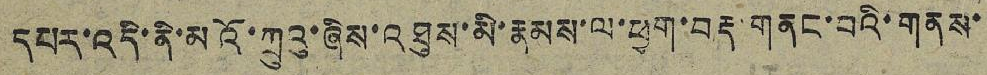དཔར་འདི་ནི་མའོ་ཀྲུའུ་ཞིས་འཐུས་མི་རྣམས་ལ་ཕྱག་བརྡ་གནང་བའི་གནས་
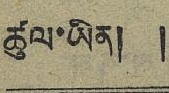ཚུལ་ཡིན། །
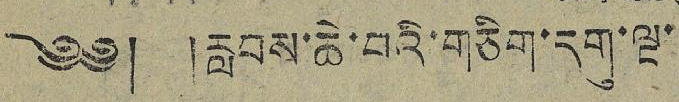༄༅། །རླབས་ཆེ་བའི་གཅིག་དགུ་ལྔ་
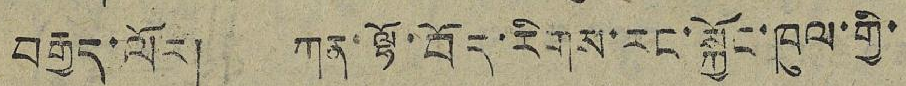བརྒྱད་ལོར། ཀན་ལྷོ་བོད་རིགས་རང་སྐྱོང་ཁུལ་གྱི་
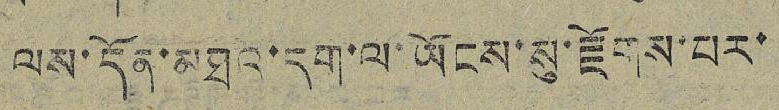ལས་དོན་མཐའ་དག་ལ་ཡོངས་སུ་རྫོགས་པར་
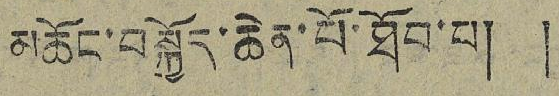མཆོང་བསྐྱོད་ཆེན་པོ་ཐོབ་པ། །
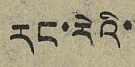རང་རེའི་
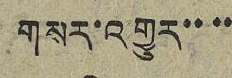གསར་འགྱུར་་་་
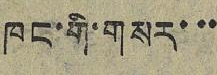ཁང་གི་གསར་་་
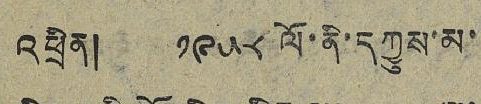འཕྲིན། ༡༩༥༨ ལོ་ནི་དཀྱུས་མ་
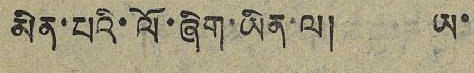མིན་པའི་ལོ་ཞིག་ཡིན་ལ། ཡ་
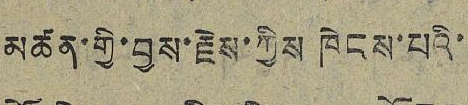མཚན་གྱི་བྱས་རྗེས་ཀྱིས ཁེངས་པའི་
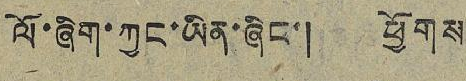ལོ་ཞིག་ཀྱང་ཡིན་ཞིང་། ཕྱོགས
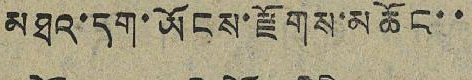མཐའ་དག་ཡོངས་རྫོགས་མཆོང་་
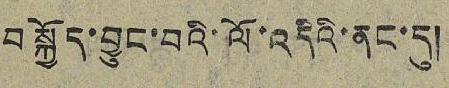བསྐྱོད་བྱུང་བའི་ལོ་འདིའི་ནང་དུ།
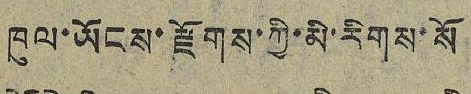ཁུལ་ཡོངས་རྫོགས་ཀྱི་མི་རིགས་སོ
